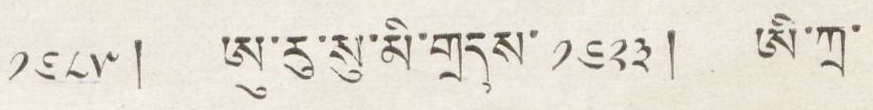༡༦༨༥ ། ཨུ་རུ་སུ་མི་གྲདས་ ༡༦༢༣ ། ཨི་ཀྲ་
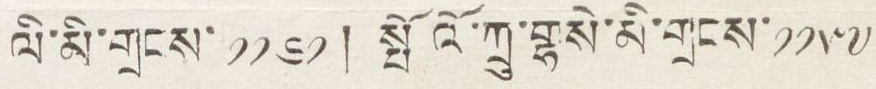ལི་མི་གྲངས་ ༡༡༦༡ ། སྤོའོ་ཀྲུ་གྷསེ་མི་གྲངས་ ༡༡༥༦
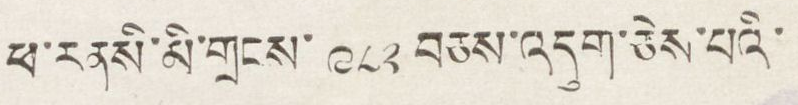ཕ་རནསི་མི་གྲངས་ ༩༨༢ བཅས་འདུག་ཅེས་པའི་
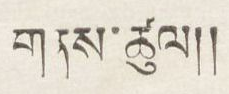གནས་ཚུལ།།
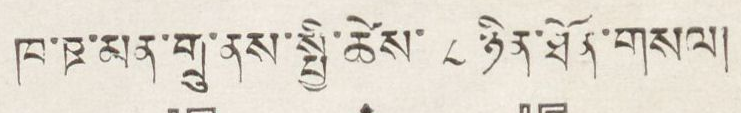ཁ་ཋ་མན་གྲུ་ནས་སྤྱི་ཚེས་ ༨ ཉིན་ཐོན་གསལ།
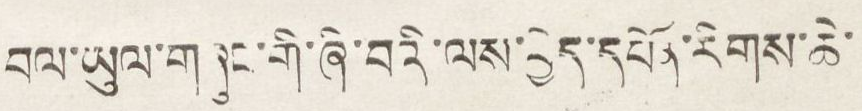བལ་ཡུལ་གཞུང་གི་ཞི་བའི་ལས་བྱེད་དཔོན་རིགས་ཆེ་
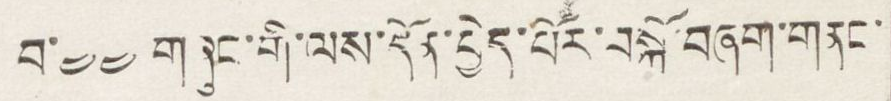བ་༤༤ གཞུང་གི་ལས་དོན་བྱེད་པོར་བསྐོ་བཞག་གནང་
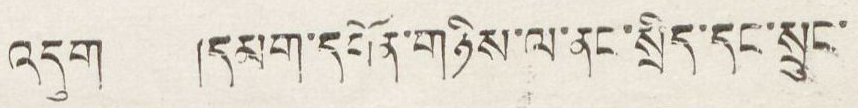འདུག །དམག་དཔོན་གཉིས་ལ་ནང་སྲིད་དང་སྲུང་
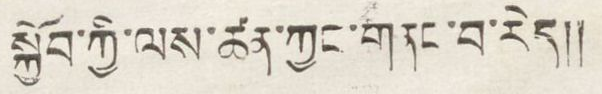སྐྱོབ་ཀྱི་ལས་ཚན་ཀྱང་གནང་བ་རེད།།
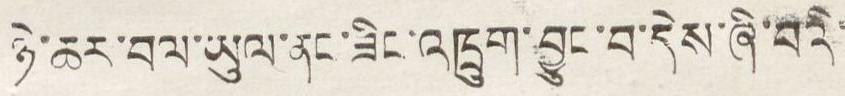ཉེ་ཆར་བལ་ཡུལ་ནང་ཟིང་འཁྲུག་བྱུང་བ་དེས་ཞི་བའི་
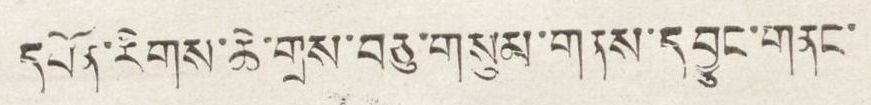དཔོན་རིགས་ཆེ་གྲས་བཅུ་གསུམ་གནས་དབྱུང་གནང་
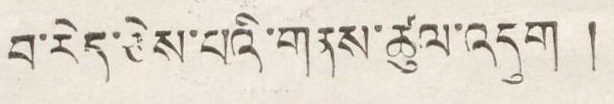བ་རེད་ཅེས་པའི་གནས་ཚུལ་འདུག །
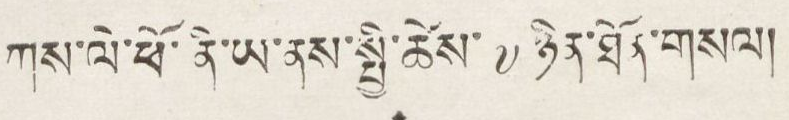ཀས་ལེ་ཕོ་ནི་ཡ་ནས་སྤྱི་ཚེས་ ༧ ཉིན་ཐོན་གསལ།
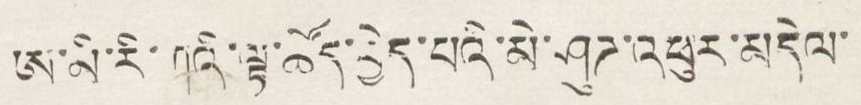ཨ་མི་རི་ཀའི་ལྟ་ཚོད་བྱེད་པའི་མེ་ཤུཊ་འཕུར་མདེལ་
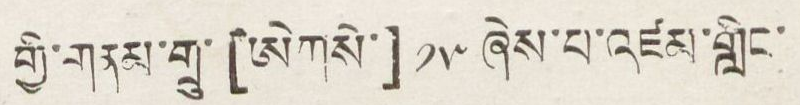གྱི་གནས་ཚུལ་གྲུ་[ཨེཀསེ་] ༡༥ ཞེས་པ་འཛམ་གླིང་
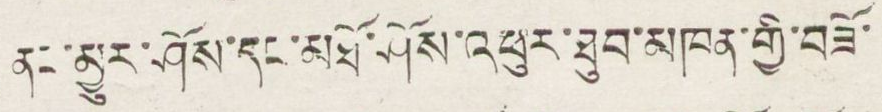ནང་མྱུར་ཤོས་དང་མཐོ་ཤོས་འཕུར་ཐུབ་མཁན་གྱི་བཟོ་
